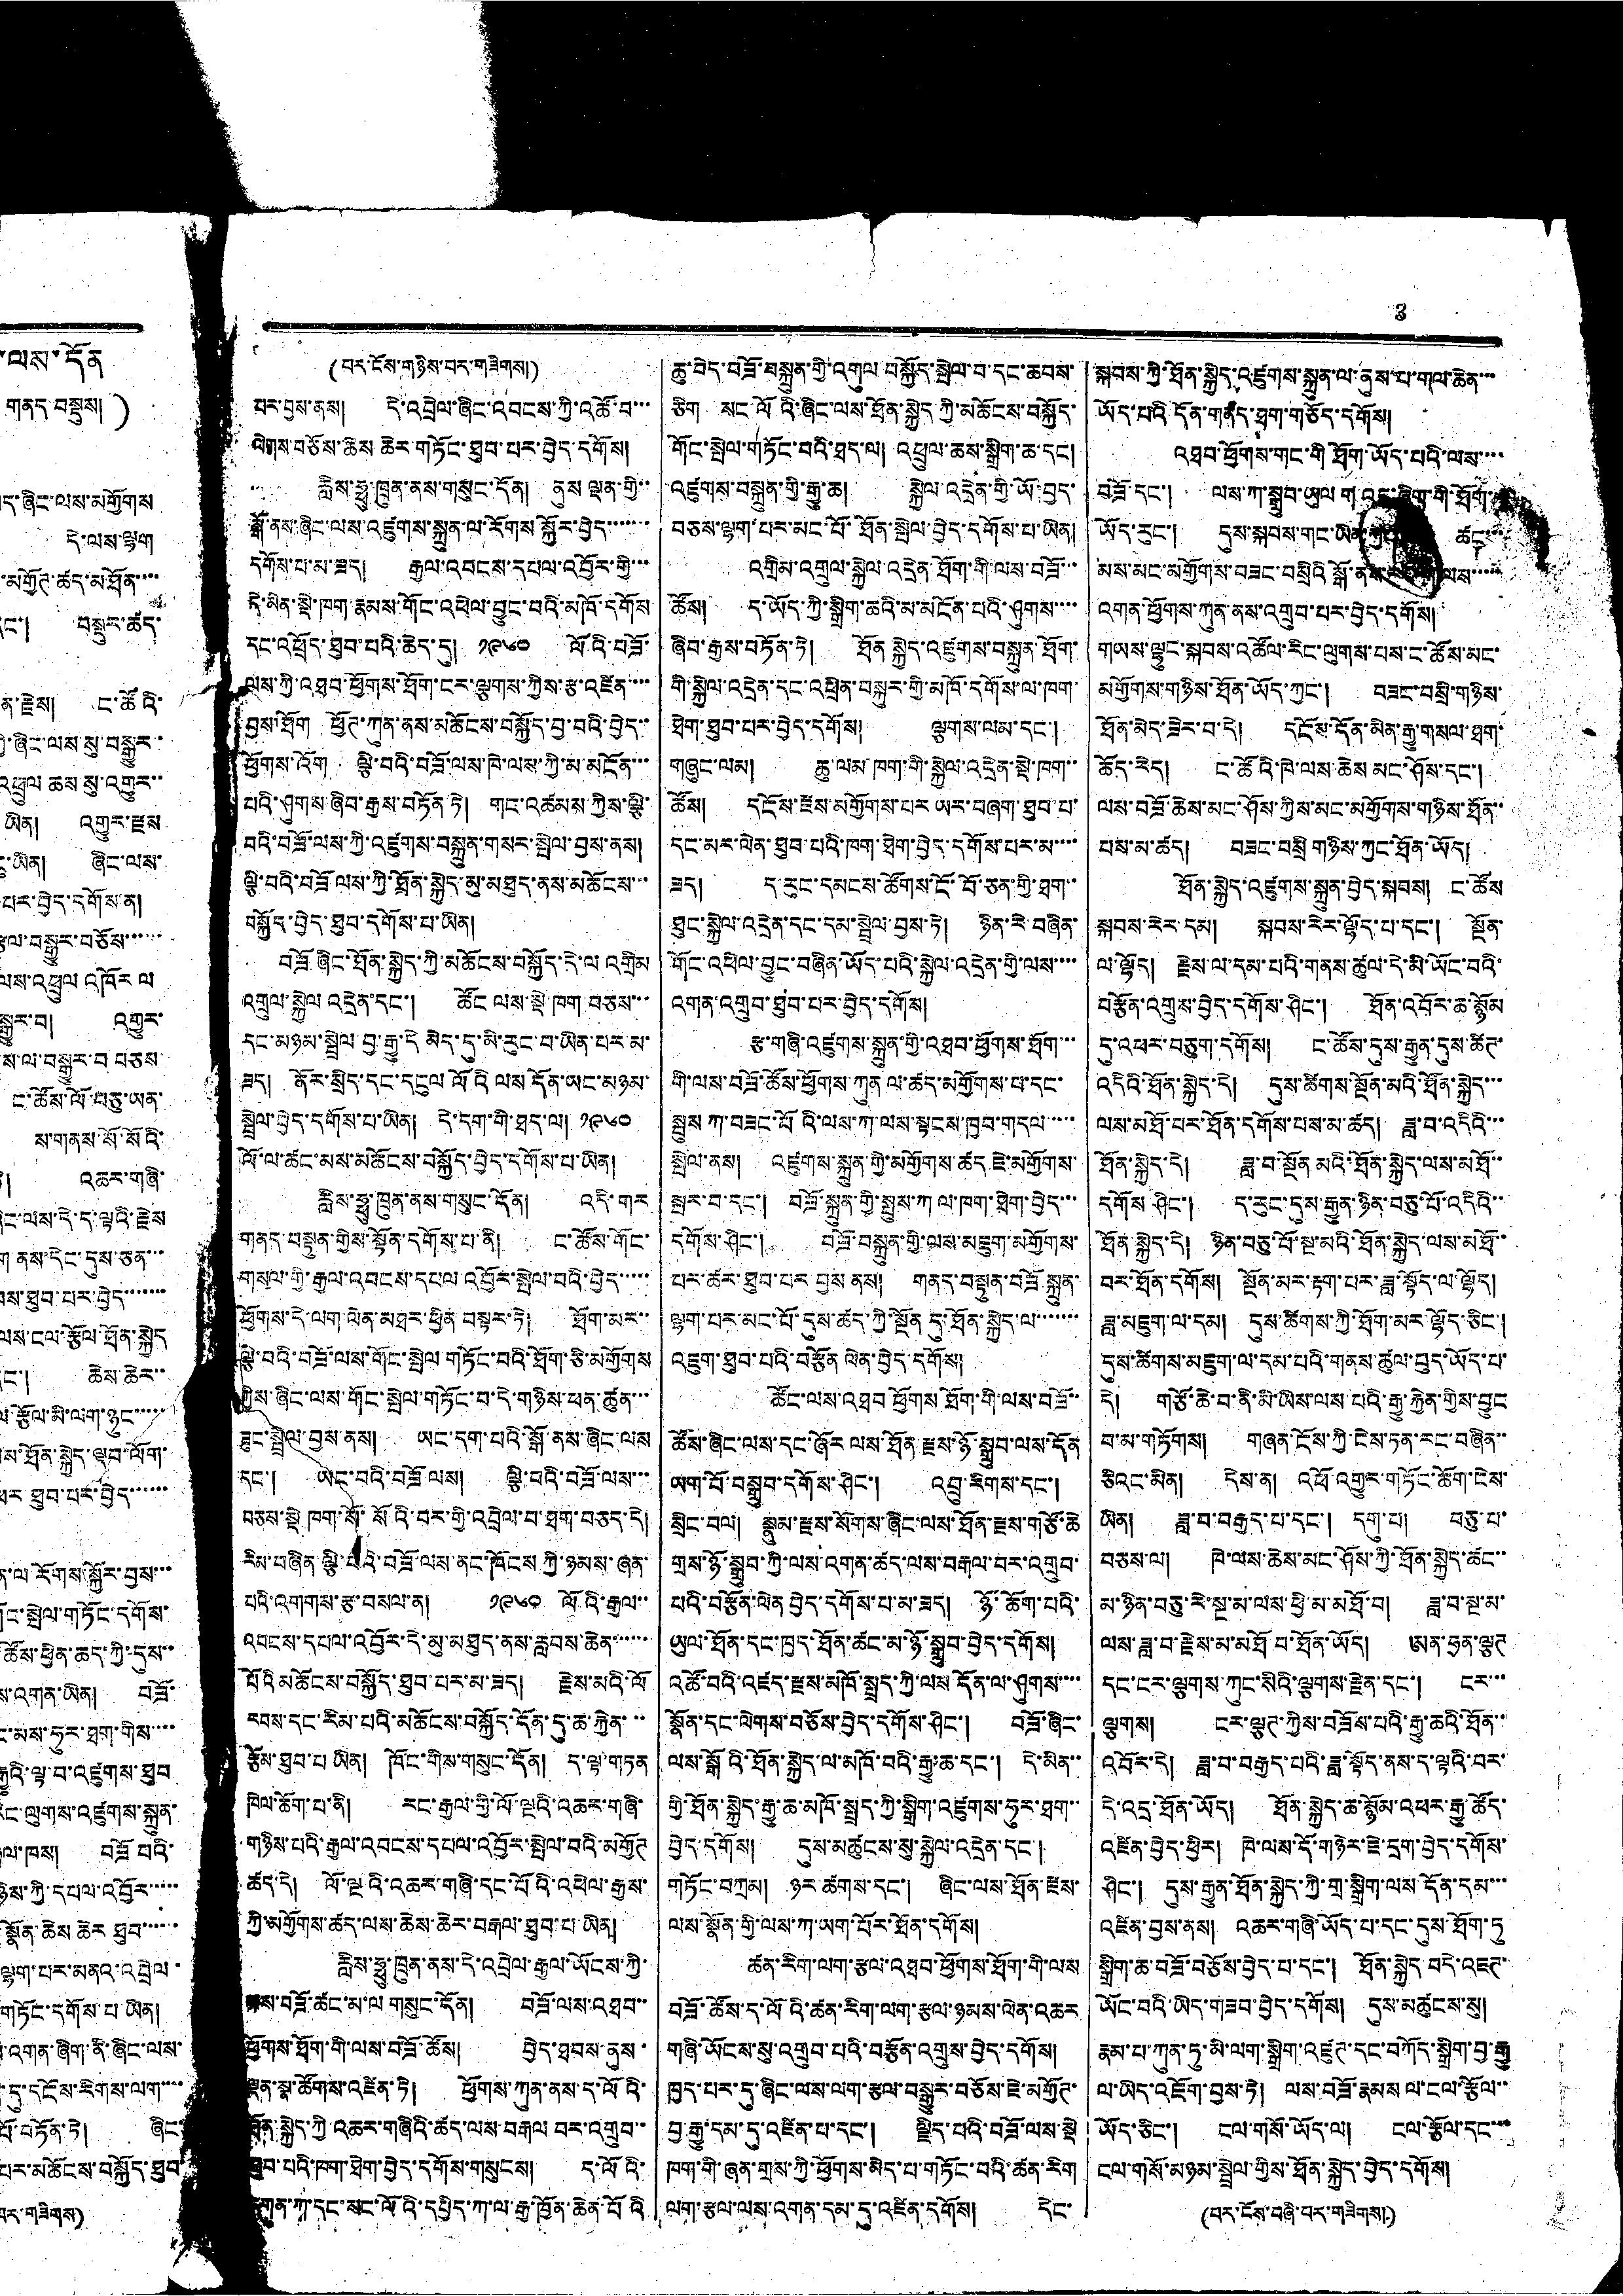3
(པར་ངོས་གཉིས་པར་གཟིགས།)
པར་བྱས་ནས། དེ་འབྲེལ་ཞིང་འབངས་ཀྱི་འཚོ་བ་་་
ལེགས་བཅོས་ཆེས ཆེར་གཏོང་ཐུབ་པར་བྱེད་དགོས།
རླིས་ཧྥུ་ཁྲུན་ནས་གསུང་དོན། ནུས ལྡན་གྱི་་
སྒོ་ནས་ཞིང་ལས་འཛུགས་སྐྲུན་ལ་རོགས སྐྱོར་བྱེད་་་་་་་
དགོས་པ་མ་ཟད། རྒྱལ་འབངས་དཔལ་འབྱོར་གྱི་་་
དེ་མིན་སྡེ་ཁག་རྣམས་གོང་འཕེལ་བྱུང་བའི་མཁོ་དགོས
དང་འཕྲོད་ཐུབ་པའི་ཆེད་དུ། ༡༩༦༠ ལོའི་བཟོ་
ལས་ཀྱི་འཐབ་ཕྱོགས་ཐོག་ངར་ལྕགས་ཀྱིས་རྩ་འཛིན་་་་
བྱས་ཐོག ཕྱོཊ་ཀུན་ནས་མཆོངས་བསྐྱོད་བྱ་བའི་བྱེད་་
ཕྱོགས་འོག ལྕི་བའི་བཟོ་ལས་ཁེ་ལས་ཀྱི་མ་མངོན་་་
པའི་ཤུགས་ཞིབ་རྒྱས་བཏོན་ཏེ། གང་འཚམས་ཀྱིས་ལྕི་
བའི་བཟོ་ལས་ཀྱི་འཛུགས་བསྐྲུན་གསར་སྤེལ་བྱས་ནས།
ལྕི་བའི་བཟོ ལས་ཀྱི་ཐོན་སྐྱེད་མུ་མཐུད་ནས་མཆོངས་་་
བསྐྱོད་བྱེད་ཐུབ་དགོས་པ་ཡིན།
བཟོ ཞིང་ཐོན་སྐྱེད་ཀྱི་མཆོངས་བསྐྱོད་དེ་ལ འགྲིམ
འགྲུལ་སྐྱེལ འདྲེན་དང་། ཚོང ལས་སྡེ་ཁག བཅས་་་
དང་མཉམ་སྦྲེལ་བྱ་རྒྱུ་དེ མེད་དུ་མི་རུང་བ་ཡིན་པར མ་
ཟད། ནོར་སྲིད་དང་དངུལ ལོའི ལས དོན་ཡང་མཉམ་
སྦྲེལ་བྱེད་དགོས་པ་ཡིན། དེ་དག་གི་ཐད་ལ། ༡༩༦༠
ལོ་ལ་ཚང་མས་མཆོངས་བསྐྱོད་བྱེད་དགོས་པ་ཡིན།
རླིས་ཧྥུ་ཁྲུན་ནས་གསུང་དོན། འདི་གར
གནད་བསྟུན་གྱིས་སྟོན་དགོས་པ་ནི། ང་ཚོས་གོང་
གསལ་གྱི་རྒྱལ་འབངས་དཔལ འབྱོར་སྤེལ་བའི་བྱེད་་་་་
ཕྱོགས་དེ་ལག ལེན་མཐར་ཕྱིན བསྟར་ཏེ། ཐོག་མར་་
ལྕི་བའི་བཟོ་ལས་གོང་སྤེལ གཏོང་བའི་ཐོག་ཅི་མགྱོགས
ཀྱིས་ཞིང་ལས་གོང་སྤེལ་གཏོང་བ་དེ་གཉིས་ཕན་ཚུན་་་
ཟུང་སྦྲེལ་བྱས་ནས། ཡང་དག་པའི་སྒོ་ནས་ཞིང་ལས
དང་། ཡང་བའི་བཟོ ལས། ལྕི་བའི་བཟོ་ལས་་་
བཅས་སྡེ ཁག་སོ་སིའི་བར་གྱི་འབྲེལ་བ་ཐག་བཅད་དེ།
རིམ་བཞིན་ལྕི་བའི་བཟོ་ལས་ནང་ཁོངས ཀྱི་ཉམས་ཞན་
པའི་འགགས་རྩ་བསལ་ན། ༡༩༦༠ ལོའི་རྒྱལ་་
འབངས་དཔལ་འབྱོར་དེ་མུ་མཐུད་ནས་རླབས་ཆེན་་་་་་
པོའི མཆོངས་བསྐྱོད་ཐུབ་པར་མ་ཟད། རྗེས་མའི་ལོ
རབས་དང་རིམ་པའི་མཆོངས་བསྐྱོད་དོན་དུ་ཆ་རྐྱེན་་་
རྩོམ་ཐུབ་པ ཡིན། ཁོང་གིས་གསུང་དོན། ད་ལྟ་གཏན
ཁེལ་ཆོག་པ་ནི། རང་རྒྱལ་གྱི་ལོ་ལྔའི་འཆར་གཞི་
གཉིས་པའི་རྒྱལ་འབངས་དཔལ་འབྱོར་སྤེལ་བའི་མགྱོཊ
ཚད་དེ། ལོ་ལྔའི་འཆར་གཞི་དང་པོའི་འཕེལ་རྒྱས་
ཀྱི་མགྱོགས་ཚད་ལས་ཆེས་ཆེར་བརྒལ་ཐུབ་པ་ཡིན།
རླིས་ཧྥུ་ཁྲུན་ནས་དེ་འབྲེལ་རྒྱལ་ཡོངས་ཀྱི་
ལས་བཟོ་ཚང་མ་ལ གསུང་དོན། བཟོ་ལས་འཐབ་་
ཕྱོགས་ཐོག་གི་ལས་བཟོ་ཚོས། བྱེད་ཐབས་ནུས་
ལྡན་སྣ་ཚོགས་འཛིན་ཏེ། ཕྱོགས་ཀུན་ནས་ད་ལོའི་
ཐོན་སྐྱེད་ཀྱི་འཆར་གཞིའི་ཚད་ལས་བརྒལ བར་འགྲུབ་་
ཐུབ་པའི་ཁག་ཐེག་བྱེད་དགོས་གསུངས། ད་ལོའི་
དགན་ཀ་དང་སང་ལོའི་དཔྱིད་ཀ་ལ་རྒྱ་ཁྱོན་ཆེན་པོའི
ཆུ་བེད་བཟོ་བསྐྲུན་གྱི་འགུལ བསྐྱོད་སྤེལ་བ་དང་ཆབས་
ཅིག སང་ལོའི་ཞིང་ལས་ཐོན་སྐྱེད ཀྱི་མཆོངས་བསྐྱོད་
གོང་སྤེལ་གཏོང་བའི་ཐད་ལ། འཕྲུལ་ཆས་སྒྲིག་ཆ་དང།
འཛུགས་བསྐྲུན་གྱི་རྒྱུ་ཆ། སྐྱེལ་འདྲེན་གྱི་ཡོ་བྱད་
བཅས་ལྷག་པར་མང་པོ་ཐོན་སྤེལ་བྱེད་དགོས་པ་ཡིན།
འགྲིམ་འགྲུལ་སྐྱེལ་འདྲེན་ཐོག་གི་ལས་བཟོ་་་
ཚོས། ད་ཡོད་ཀྱི་སྒྲིག་ཆའི་མ་མངོན་པའི་ཤུགས་་་་
ཞིབ་རྒྱས་བཏོན་ཏེ། ཐོན སྐྱེད་འཛུགས་བསྐྲུན་ཐོག་
གི་སྐྱེལ་འདྲེན་དང་འཕྲིན་བསྐུར་གྱི་མཁོ་དགོས་ལ་ཁག་
ཐེག་ཐུབ་པར་བྱེད་དགོས། ལྕགས་ལམ་དང་།
གཞུང་ལམ། ཆུ་ལམ་ཁག་གི་སྐྱེལ་འདྲེན་སྡེ་ཁག་་
ཚོས། དངོས་རྫས་མགྱོགས་པར ཡར་བཞག་ཐུབ་པ་
དང་མར་ལེན་ཐུབ་པའི་ཁག་ཐེག་བྱེད་དགོས་པར་མ་་་་
ཟད། ད་རུང་དམངས་ཚོགས་ངོ་བོ་ཅན་གྱི་ཐག་་
ཐུང་སྐྱེལ་འདྲེན་དང་དམ་སྦྲེལ་བྱས་ཏེ། ཉིན་རེ་བཞིན་
གོང་འཕེལ་བྱུང་བ་བཞིན་ཡོད་པའི་སྐྱེལ་འདྲེན་གྱི་ལས་་་་
འགན་འགྲུབ་ཐུབ་པར་བྱེད་དགོས།
རྩ་གཞི་འཛུགས་སྐྲུན་གྱི་འཐབ་ཕྱོགས་ཐོག་་་
གི་ལས་བཟོ་ཚོས་ཕྱོགས་ཀུན ལ་ཚད་མགྱོགས་པ་དང་
སྤུས ཀ་བཟང་པོའི་ལས་ཀ་ལས་སྟངས་ཁྱབ་གདལ་་་་
སྤེལ་ནས། འཛུགས་སྐྲུན་གྱི་མགྱོགས་ཚད ཇེ་མགྱོགས་
སྤར་བ་དང་། བཟོ་སྐྲུན་གྱི་སྤུས་ཀ ལ་ཁག་ཐེག་བྱེད་་་
དགོས་ཤིང་། བཟོ་བསྐྲུན་གྱི་ལས་མཇུག་མགྱོགས་
པར་ཚར་ཐུབ་པར བྱས ནས། གནད་བསྟུན་བཟོ སྐྲུན་
ལྷག་པར་མང་པོ་དུས་ཚད་ཀྱི་སྔོན དུ་ཐོན་སྐྱེད་ལ་་་་་་་
འཇུག་ཐུབ་པའི་བརྩོན ལེན་བྱེད་དོགས།
ཚོང་ལས་འཐབ ཕྱོགས ཐོག་གི་ལས་བཟོ་་
ཚོས་ཞིང་ལས་དང་ཞོར ལས་ཐོན་རྫས་ཉོ་སྒྲུབ་ལས་དོན
ཡག་པོ་བསྒྲུབ་དགོས་ཤིང་། འབྲུ་རིགས་དང་།
སྲིང་བལ། སྣུམ་རྫས་སོགས་ཞིང་ལས་ཐོན་རྫས་གཙོ་ཆེ
གྲས་ཉོ་སྒྲུབ་ཀྱི་ལས་འགན་ཚད་ལས་བརྒལ་བར་འགྲུབ་
པའི་བརྩོན་ལེན བྱེད་དགོས་པ་མ་ཟད། ཉོ་ཆོག་པའི་
ཡུལ་ཐོན་དང་ཁྱད་ཐོན་ཚང་མ་ཉོ་སྒྲུབ་བྱེད་དགོས།
འཚོ་བའི་འཛད་རྫས་མཁོ་སྤྲད་ཀྱི་ལས དོན་ལ་ཤུགས་་་་
སྣོན་དང་ལེགས་བཅོས་བྱེད་དགོས་ཤིང་། བཟོ་ཞིང་
ལས་སྒོའི་ཐོན་སྐྱེད་ལ་མཁོ་བའི་རྒྱུ་ཆ་དང་། དེ་མིན་་
གྱི་ཐོན་སྐྱེད་རྒྱུ་ཆ་མཁོ་སྤྲད་ཀྱི་སྒྲིག་འཛུགས་ཧུར་ཐག་་
བྱེད་དགོས། དུས་མཚུངས་སུ་སྐྱེལ་འདྲེན་དང་།
གཏོང་བཀྲམ། ཉར་ཚགས་དང་། ཞིང་ལས་ཐོན་རྫས་
ལས་སྣོན་གྱི་ལས་ཀ་ཡག་པོར་ཐོན་དགོས།
ཚན་རིག་ལག་རྩལ་འཐབ་ཕྱོགས་ཐོག་གི་ལས
བཟོ་ཚོས་ད་ལོའི་ཚན་རིག་ལག་རྩལ་ཉམས་ལེན་འཆར
གཞི་ཡོངས་སུ་འགྲུབ་པའི་བརྩོན་འགྲུས་བྱེད་དགོས།
ཁྱད་པར་དུ་ཞིང་ལས་ལག་རྩལ་བསྒྱུར་བཅོས་ཇེ་མགྱོཊ་
བྱ་རྒྱུ་དམ་དུ་འཛིན་པ་དང་། ལྗིད་པའི་བཟོ་ལས་སྡེ
ཁག་གི་ཞན་གྲས་ཀྱི་ཕྱོགས་མེད་པ་གཏོང་བའི་ཚན་རིག
ལག་རྩལ་ལས་འགན་དམ་དུ་འཛིན་དགོས། དེང་
སྐབས་ཀྱི་ཐོན་སྐྱེད་འཛུགས་སྐྲུན་ལ་ནུས་པ་གལ་ཆེན་་་
ཡོད་པའི དོན་གནད་ཐག་གཙོད་དོགས།
འཐབ་ཕྱོགས་གང་གི ཐོག་ཡོད་པའི་ལས་་་་
བཟོ་དང་། ལས་ཀ་སྒྲུབ་ཡུལ གའང་ཞིག་གི་ཐོག་་
ཡོད་རུང་། དུས་སྐབས་གང་ཡིན་ཀྱི་ ཚང་་་
མས་མང་མགྱོགས་བཟང་བསྲིའི སྒོ་ནས་ ལས་་་་་
འགན་ཕྱོགས་ཀུན་ནས་འགྲུབ་པར་བྱེད་དགོས།
གཡས་ལྷུང་སྐབས་འཚོལ་རིང་ལུགས་པས་ང་ཚོས་མང་
མགྱོགས་གཉིས་ཐོན་ཡོད་ཀྱང་། བཟང་བསྲི་གཉིས་
ཐོན་མེད་ཟེར་བ་དེ། དངོས་དོན་མིན་རྒྱུ་གསལ་ཐག་
ཆོད་རེད། ང་ཚོའི་ཁེ་ལས་ཆེས མང་ཤོས་དང་།
ལས་བཟོ་ཆེས་མང་ཤོས་ཀྱིས་མང་མགྱོགས་གཉིས་ཐོན་་
པས་མ་ཚད། བཟང་བསྲི གཉིས་ཀྱང་ཐོན་ཡོད།
ཐོན་སྐྱེད་འཛུགས་སྐྲུན་བྱེད་སྐབས། ང་ཚོས
སྐབས་རེར་དམ། སྐབས་རེར་ལྷོད་པ་དང་། སྔོན་
ལ་ལྷོད། རྗེས་ལ་དམ་པའི་གནས་ཚུལ་དེ་མི་ཡོང་བིའ་
བརྩོན་འགྲུས་བྱེད་དགོས་ཤིང་། ཐོན་འབོར་ཆ་སྙོམ
དུ་འཕར་བཅུག་དགོས། ང་ཚོས་དུས་རྒྱུན་དུས་ཚིཊ་
འདིའི་ཐོན་སྐྱེད་དེ། དུས་ཚོགས་སྔོན་མའི་ཐོན་སྐྱེད་་་
ལས་མཐོ་པར་ཐོན་དགོས་པས་མ་ཚད། ཟླ་བ་འདིའི་་་
ཐོན་སྐྱེད་དེ། ཟླ་བ་སྔོན མའི་ཐོན་སྐྱེད་ལས་མཐོ་་
དགོས ཤིང་། ད་རུང་དུས་རྒྱུན་ཉིན་བཅུ་པོ་འདིའི་་
ཐོན་སྐྱེད་དེ། ཉིན་བཅུ་པོ་སྔ་མའི་ཐོན་སྐྱེད་ལས་མཐོ་་
བར་ཐོན་དགོས། སྔོན་མར་རྟག་པར་ཟླ་སྟོད་ལ་ལྷོད།
ཟླ་མཇུག་ལ་དམ། དུས་ཚིགས་ཀྱི་ཐོག་མར་ལྷོད་ཅིང་།
དུས་ཚིགས་མཇུག་ལ་དམ་པའི་གནས་ཚུལ་བུད་ཡོད་པ་
དེ། གཙོ་ཆེ་བ་ནི་མི་ཡིས་ལས་པའི་རྒྱུ་རྐྱེན་གྱིས་བྱུང
བ་མ་གཏོགས། གཞན་ངོས་ཀྱི་ངེས་ཏན་རང་བཞིན་་
ཅིའང་མིན། དེས་ན། འཕོ འགྱུར་གཏོང་ཆོག་ངེས་
ཡིན། ཟླ་བ་བརྒྱད་པ་དང་། དགུ་པ། བཅུ་པ་
བཅས་ལ། ཁེ་ལས་ཆེས་མང་ཤོས་ཀྱི་ཐོན་སྐྱེད་ཚང་་
མ་ཉིན་བཅུ་རེ་སྔ་མ་ལས་ཕྱི་མ་མཐོ་བ། ཟླ་བ་སྔ་མ་
ལས་ཟླ་བ་རྗེས་མ་མཐོ པ་ཐོན་ཡོད། ཨན་ཧྲན་ལྕཊ
དང་ངར་ལྕགས་ཀུང་སིའི་ལྕགས་རྗེན་དང་། ངར་་་
ལྕགས། ངར་ལྕཊ་ཀྱིས་བཟོས་པའི་རྒྱུ་ཆའི་ཐོན་་
འབོར་དེ། ཟླ་བ་བརྒྱད་པའི་ཟླ་སྟོད་ནས་ད་ལྟའི་བར་
དེ་འདྲ་ཐོན་ཡོད། ཐོན་སྐྱེད་ཆ་སྙོམ་འཕར་རྒྱུ་ཚོད་
འཛིན་བྱེད་ཕྱིར། ཁེ་ལས་དོ་གཉེར་ཇེ་དྲག་བྱེད་དགོས་
ཤིང་། དུས་རྒྱུན་ཐོན་སྐྱེད་ཀྱི་གྲ་སྒྲིག་ལས་དོན་དམ་་་
འཛིན་བྱས་ནས། འཆར་གཞི་ཡོད་པ་དང་དུས་ཐོག་ཏུ
སྒྲིག་ཆ་བཟོ་བཅོས་བྱེད་པ་དང་། ཐོན་སྐྱེད བདེ་འཇཊ་
ཡོང་བའི་ཡིད་གཟབ་བྱེད་དགོས། དུས་མཚུངས་སུ།
རྣམ་པ་ཀུན་ཏུ་མི་ལག་སྒྲིག་འཛུཊ་དང་བཀོད་སྒྲིག་བྱ་རྒྱུ
ལ་ཡིད་འཇོག་བྱས་ཏེ། ལས་བཟོ་རྣམས ལ་ངལ་རྩོལ་་
ཡོད་ཅིང་། ངལ་གསོ་ཡོད་ལ། ངལ་རྩོལ་དང་་་
ངལ་གསོ་མཉམ་སྦྲེལ་གྱིས་ཐོན་སྐྱེད་བྱེད་དགོས།
(པར་ངོས་བཞི་པར་གཟིགས།)
